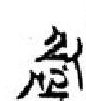སོ་ལྔ་
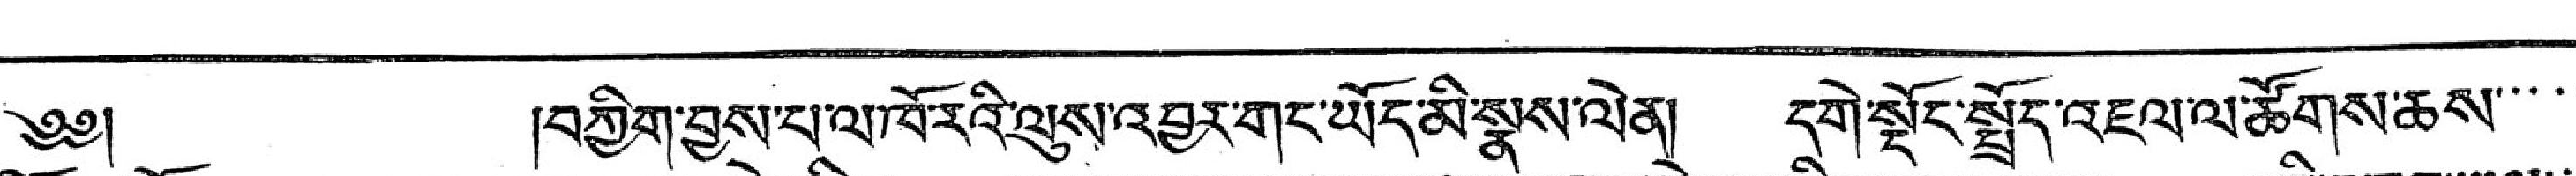༄༅།  །བཀྱིག་བྱས་པ་ལ་ཁོ་རའི་ལུས་འབྱར་གང་ཡོད་མི་སྣས་ལེན། དགེ་སྡོང་སྤྲོད་འཇལ་ལ་ཚོགས་ཆས་་་་་
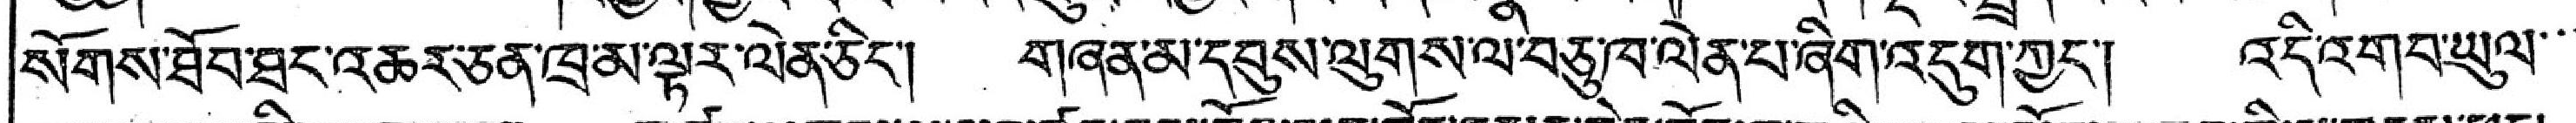སོགས་ཐོབ་ཐང་འཆར་ཅན་ཁྲ་མ་ལྟར་ལེན་ཅིང་། གཞན་མ་དབུས་ལུགས་ལ་བཅུ་ཁ་ལེན་པ་ཞིག་འདུག་ཀྱང་། འདི་འགབ་ཡུལ་་་
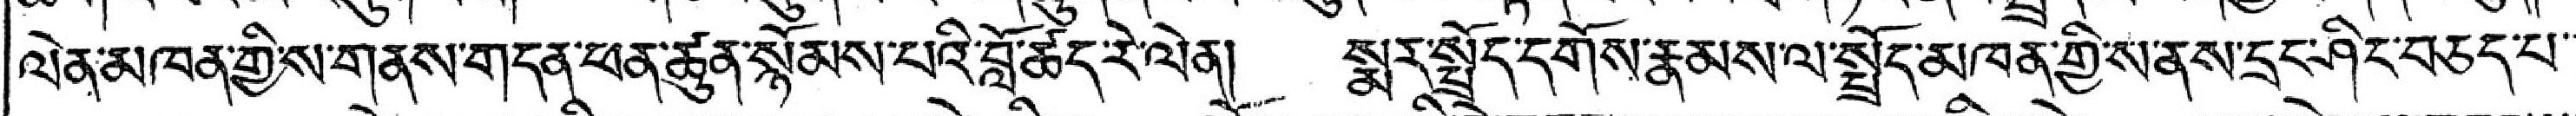ལེན་མཁན་གྱི་ས་གནས་གདན་ཕན་ཚུན་སྙོམས་པའི་བློ་ཚད་རེ་ལེན། སྨར་སྤྲོད་དགོས་རྣམས་ལ་སྤྲོད་མཁན་གྱི་ས་ནས་དྲང་ཤིང་བཅད་པ་་
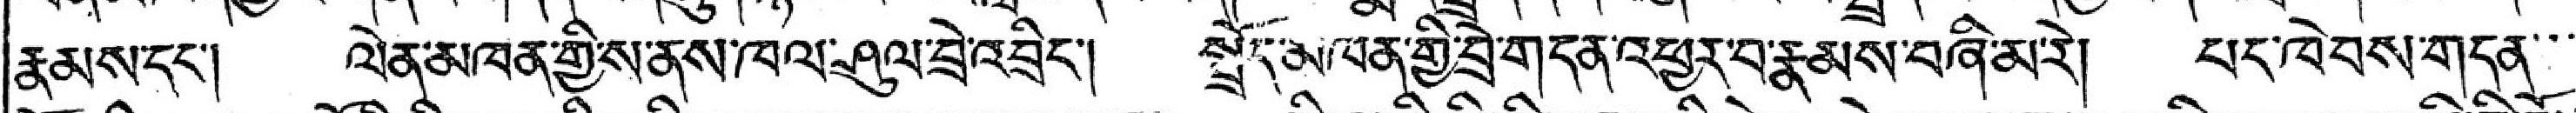རྣམས་དང་། ལེན་མཁན་གྱི་ས་ནས་ཁལ་ཤུལ་བྲེ་འབྲིང་། སྤྲོད་མཁན་གྱི་བྲེ་གདན་འཕྱར་བ་རྣམས་བཞི་མ་རེ། པང་ཕེབས་གདན་་་
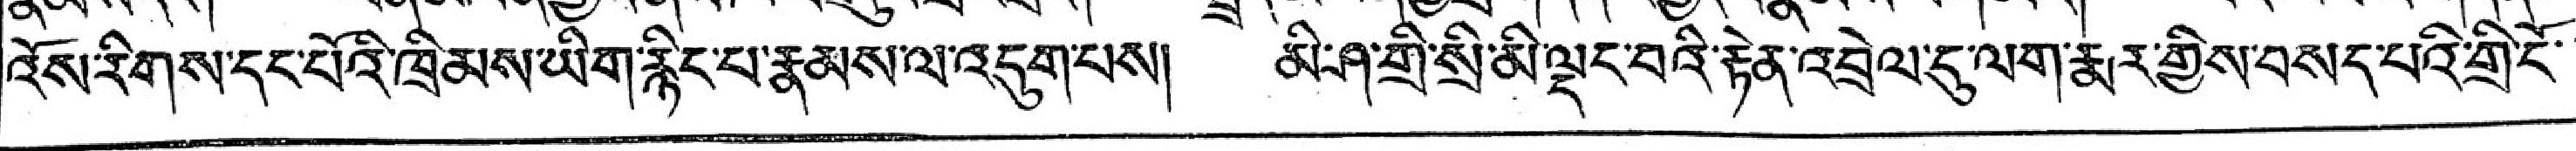འོས་རིགས་དང་པོའི་ཁྲིམས་ཡིག་རྙིང་པ་རྣམས་ལ་འདུག་པས། མི་ཤ་གྲི་སྲི་མི་ལྡང་བའི་རྟེན་འབྲེལ་དུ་ལག་རྨར་གྱིས་བསད་པའི་གྲི་ངོ་་
